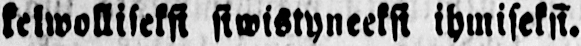kelwolliseksi siwistyneeksi ihmiseksi.
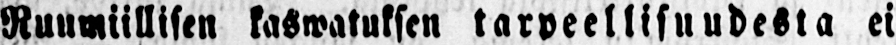Ruumiillisen kaswatuksen tarpeellisuudesta ei
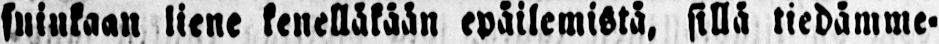suinkaan liene kenelläkään epäilemistä, sillä tiedämme-
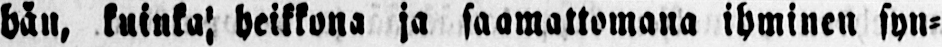hän, kuinka heikkona ja saamattomana ihminen syn-
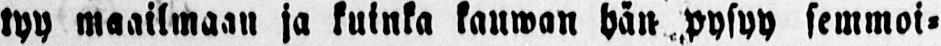tyy maailmaan ja kuinka kauwan hän pysyy semmoi-
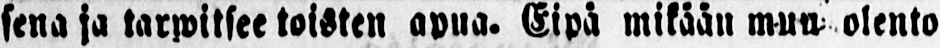sena ja tarwitsee toisten apua. Eipä mikään muu olento
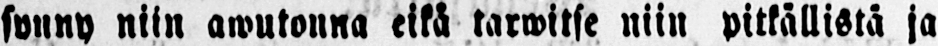synny niin awutonna eikä tarwitse niin pitkällistä ja
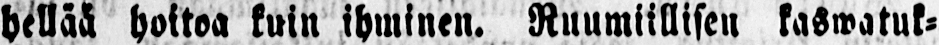hellää hoitoa kuin ihminen. Ruumiillisen kaswatuk-
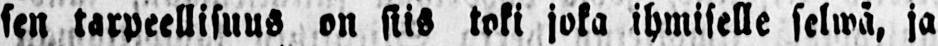sen tarpeellisuus on siis toki joka ihmiselle selwä, ja
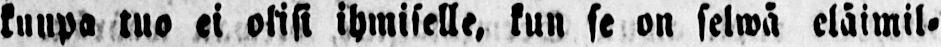kuupa tuo ei olisi ihmiselle, kun se on selwä eläimil-
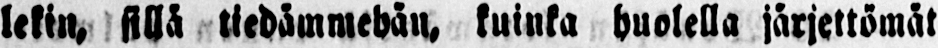lekin, sillä tiedämmehän, kuinka huolella järjettömät
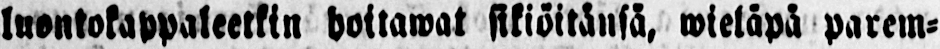luontokappaleetkin hoitawat sikiöitänsä, wieläpä parem-
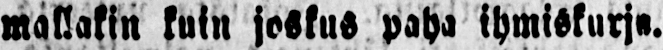mallakin kuin joskus paha ihmiskurja.
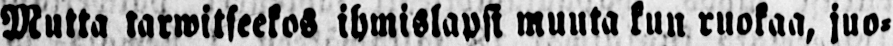Mutta tarwitseekos ihmislapsi muuta kun ruokaa, juo-
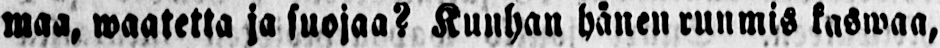maa, waatetta ja suojaa? Kunhan hänen runmis kaswaa,
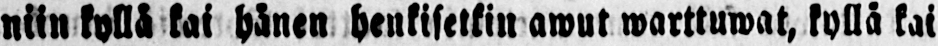niin kyllä kai hänen henkisetkin awut warttuwat, kyllä kai
